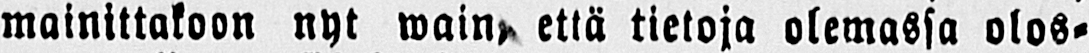mainittakoon nyt wain, että tietoja olemassa olos-
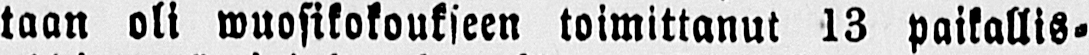taan oli wuosikokoukseen toimittanut 13 paikallis-
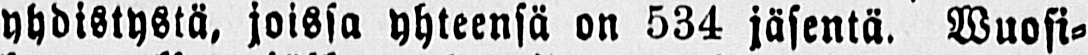yhdistystä, joissa yhteensä on 534 jäsentä. Wuosi-
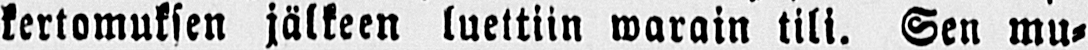kertomuksen jälkeen luettiin warain tili. Sen mu-
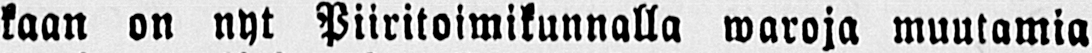kaan on nyt Piiritoimikunnalla waroja muutamia
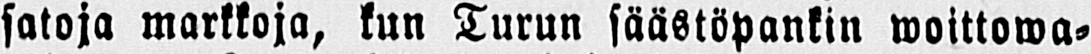satoja markkoja, kun Turun säästöpankin woittowa-
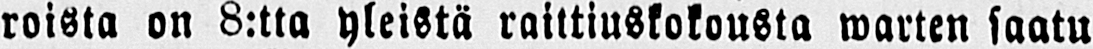roista on 8:tta yleistä raittiuskokousta warten saatu
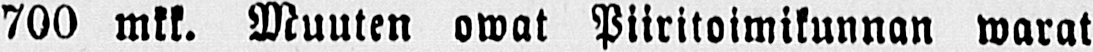700 mkk. Muuten owat Piiritoimikunnan warat
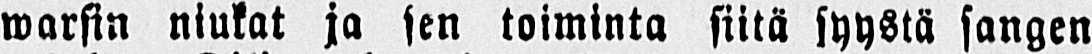warsin niukat ja sen toiminta siitä syystä sangen
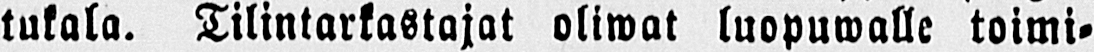tukala. Tilintarkastajat oliwat luopuwalle toimi-
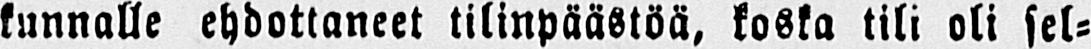kunnalle ehdottaneet tilinpäästöä, koska tili oli sel-
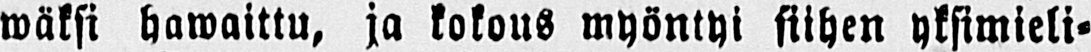wäksi hawaittu, ja kokous myöntyi siihen yksimieli-
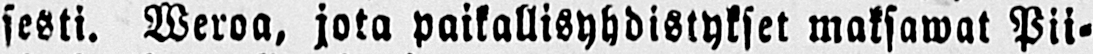sesti. Weroa, jota paikallisyhdistykset maksawat Pii-
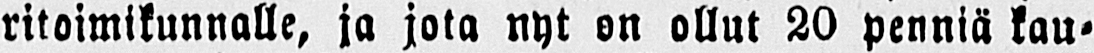ritoimikunnalle, ja jota nyt on ollut 20 penniä kau-
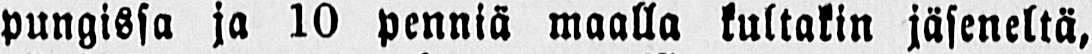pungissa ja 10 penniä maalla kultakin jäseneltä,
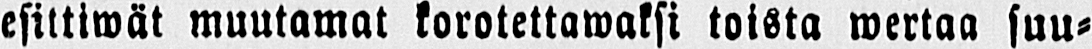esittiwät muutamat korotettawaksi toista wertaa suu-
